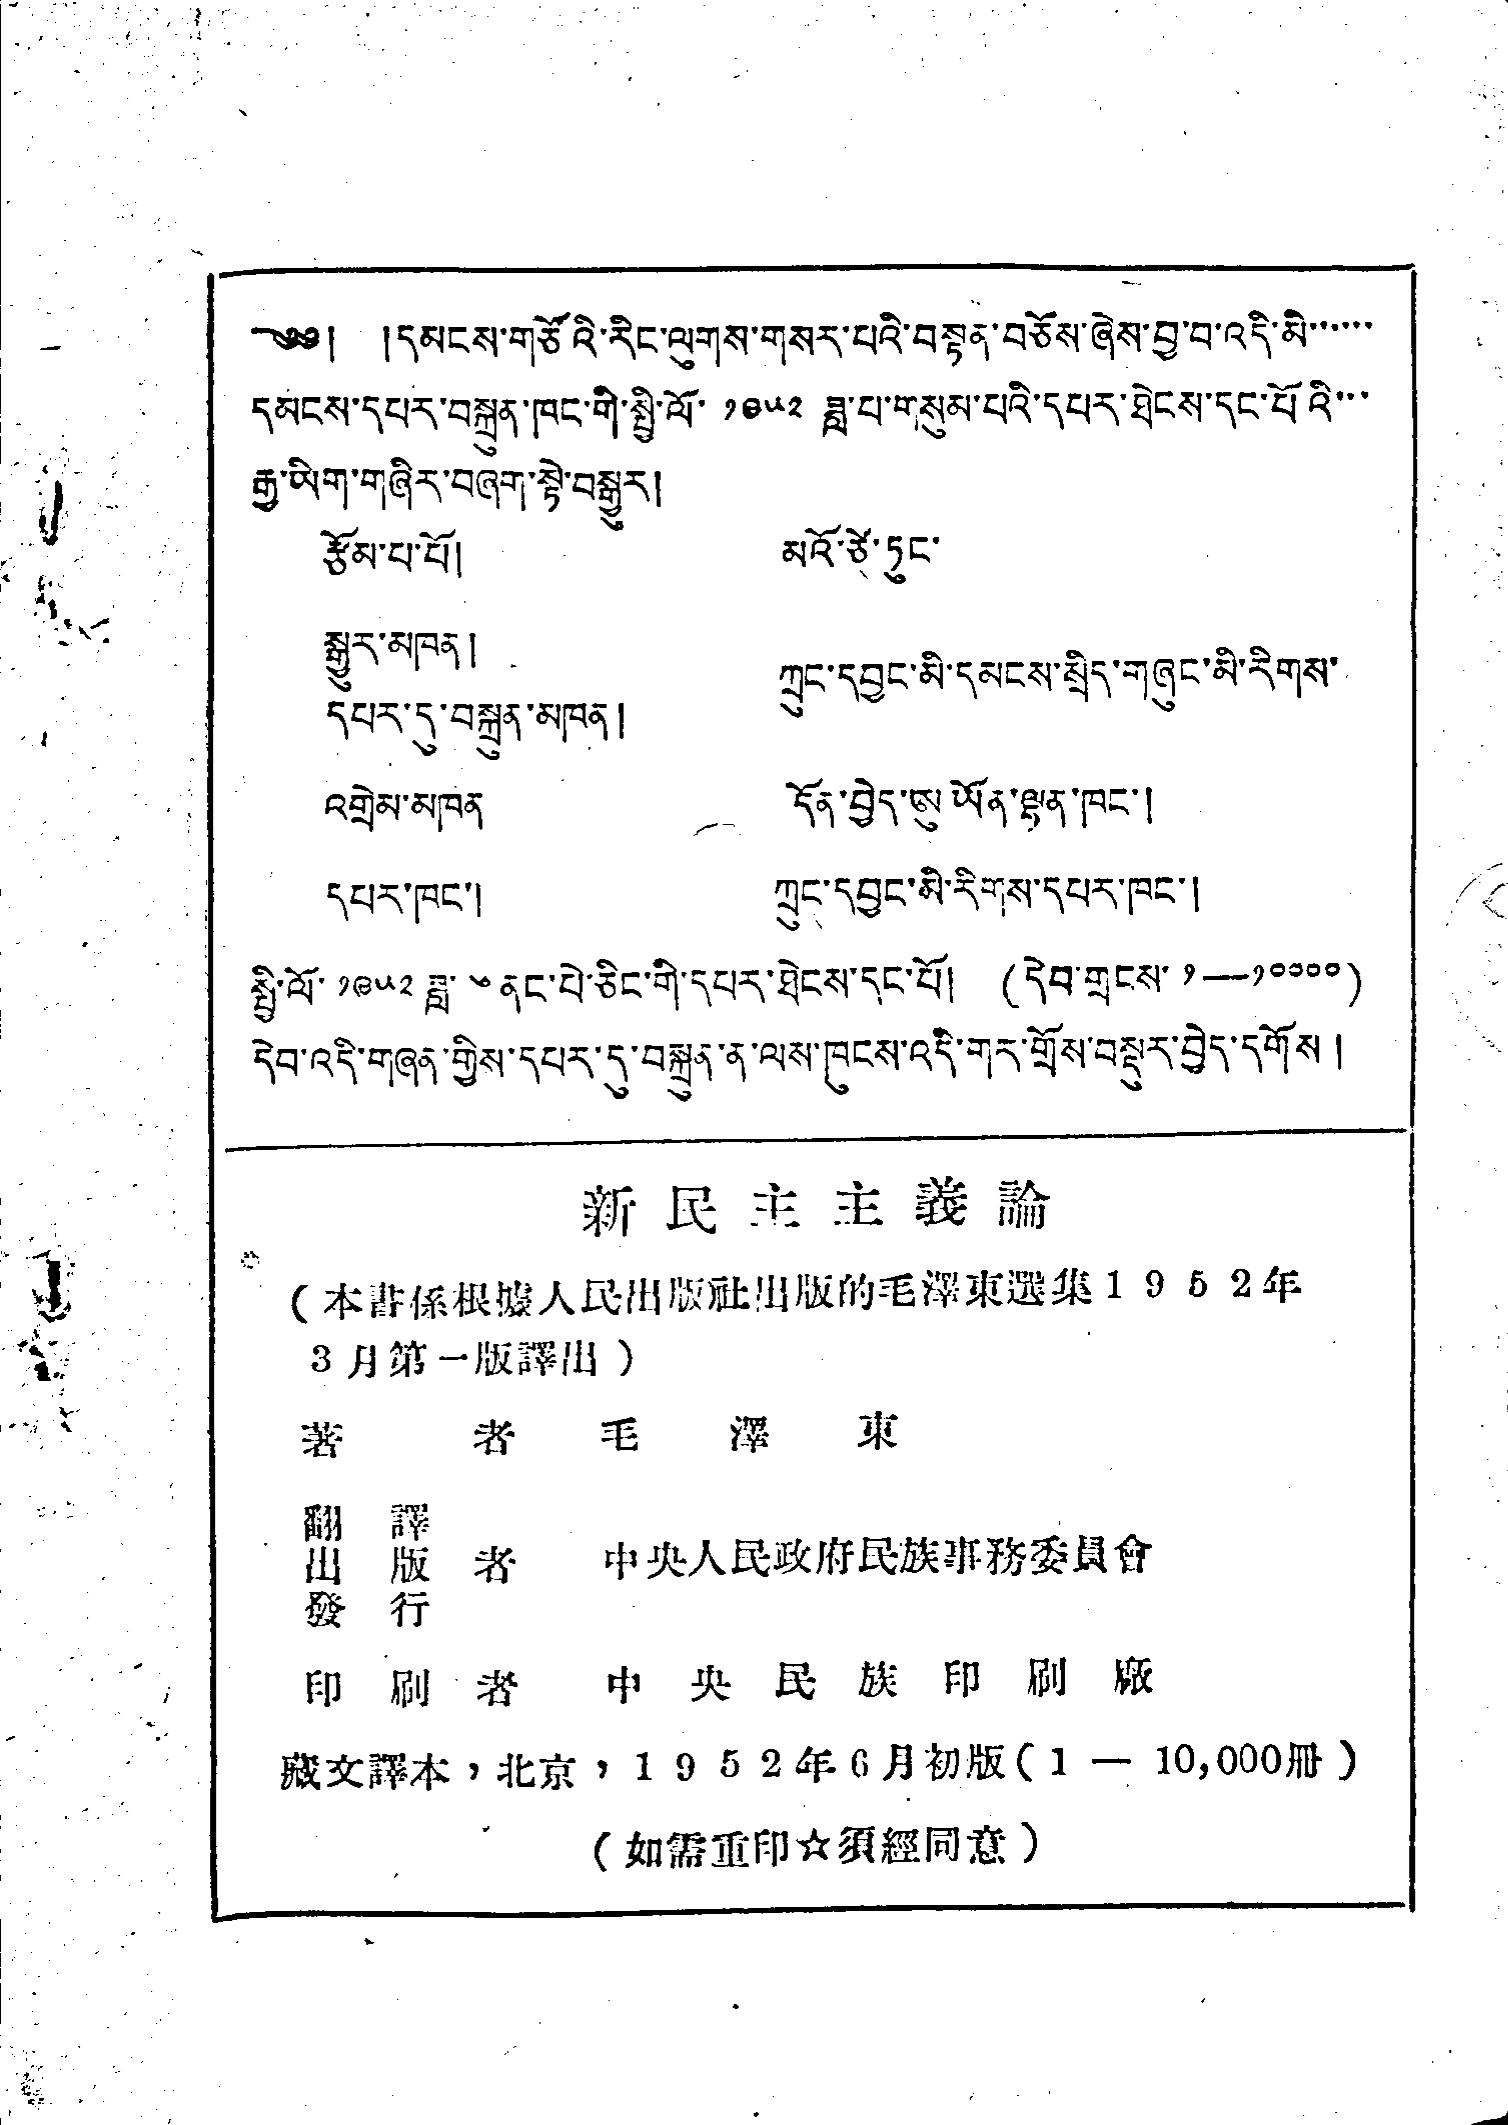༄༅། །དམངས་གཙོའི་རིང་ལུགས་གསར་པའི་བསྟན་བཅོས་ཞེས་བྱ་བ་འདི་མི་་་་་་
དམངས་དཔར་བསྐྲུན་ཁང་གི་སྤྱི་ལོ་ ༡༩༥༢ ཟླ་པ་གསུམ་པའི་དཔར་ཐེངས་དང་པོའི་་་
རྒྱ་ཡིག་གཞིར་བཞག་སྟེ་བསྒྱུར།
རྩོམ་པ་པོ།
མའོ་ཙེ་ཏུང་
སྒྱུར་མཁན །
དཔར་དུ་བསྐྲུན་མཁན །
ཀྲུང་དབྱུང་མི་དམངས་སྲིད་གཞུང་མི་རིགས་
འགྲེམ་མཁན་
དོན་བྱེད་ཨུ་ཡོན་ལྷན་ཁང་།
དཔར་ཁང་།
ཀྲུང་དབྱུང་མི་རིགས་དཔར་ཁང་།
སྤྱི་ལོ་ ༡༩༥༢ ཟླ་ ༦ ནང་པེ་ཅིང་གི་དཔར་ཐེངས་དང་པོ། (དེབ་གྲངས་ ༡—༡༠༠༠༠)
དེབ་འདི་གཞན་གྱིས་དཔར་དུ་བསྐྲུན་ན་ལས་ཁུངས་འདི་གར་གྲོས་བསྡུར་བྱེད་དགོས །
新 民 主 主 義 論
（本書係根據人民出版社出版的毛澤東選集1 9 5 2年
3 月第一版譯出）
著 者 毛 澤 東
翻 譯
出 版 者
發 行
中央人民政府民族事務委員會
印 刷 者 中 央 民 族 印 刷 廠
藏文譯本，北京，1 9 5 2 年 6 月初版（1 — 10,000冊）
（如需重印☆須經同意）
